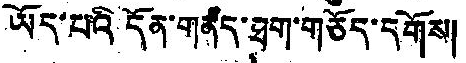ཡོད་པའི དོན་གནད་ཐག་གཙོད་དོགས།
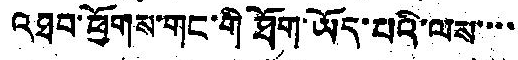འཐབ་ཕྱོགས་གང་གི ཐོག་ཡོད་པའི་ལས་་་་
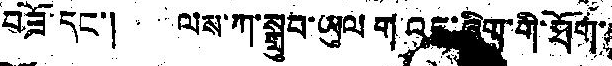བཟོ་དང་། ལས་ཀ་སྒྲུབ་ཡུལ གའང་ཞིག་གི་ཐོག་་
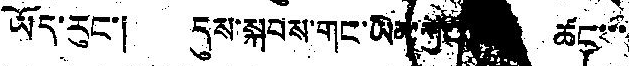ཡོད་རུང་། དུས་སྐབས་གང་ཡིན་ཀྱི་ ཚང་་་
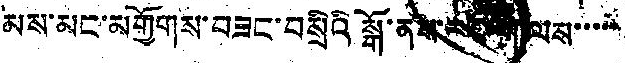མས་མང་མགྱོགས་བཟང་བསྲིའི སྒོ་ནས་ ལས་་་་་
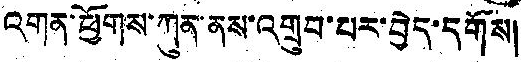འགན་ཕྱོགས་ཀུན་ནས་འགྲུབ་པར་བྱེད་དགོས།
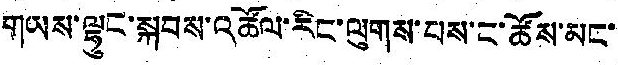གཡས་ལྷུང་སྐབས་འཚོལ་རིང་ལུགས་པས་ང་ཚོས་མང་
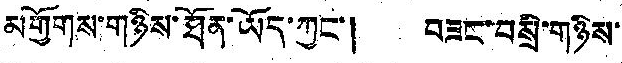མགྱོགས་གཉིས་ཐོན་ཡོད་ཀྱང་། བཟང་བསྲི་གཉིས་
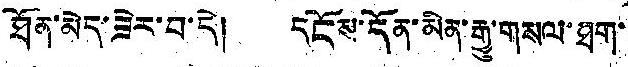ཐོན་མེད་ཟེར་བ་དེ། དངོས་དོན་མིན་རྒྱུ་གསལ་ཐག་
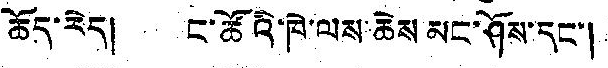ཆོད་རེད། ང་ཚོའི་ཁེ་ལས་ཆེས མང་ཤོས་དང་།
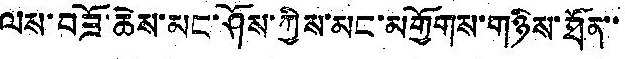ལས་བཟོ་ཆེས་མང་ཤོས་ཀྱིས་མང་མགྱོགས་གཉིས་ཐོན་་
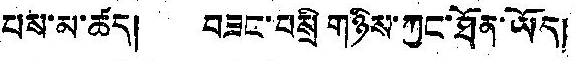པས་མ་ཚད། བཟང་བསྲི གཉིས་ཀྱང་ཐོན་ཡོད།
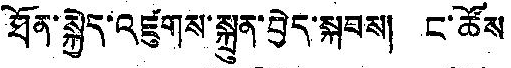ཐོན་སྐྱེད་འཛུགས་སྐྲུན་བྱེད་སྐབས། ང་ཚོས
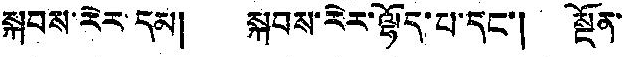སྐབས་རེར་དམ། སྐབས་རེར་ལྷོད་པ་དང་། སྔོན་
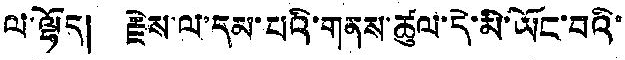ལ་ལྷོད། རྗེས་ལ་དམ་པའི་གནས་ཚུལ་དེ་མི་ཡོང་བིའ་
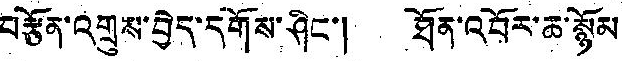བརྩོན་འགྲུས་བྱེད་དགོས་ཤིང་། ཐོན་འབོར་ཆ་སྙོམ
